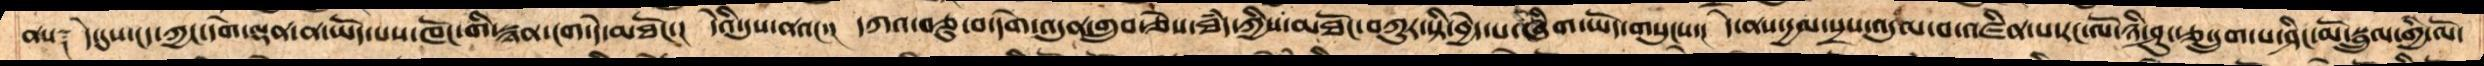ནས༑  དེ་དུས་ངད་ཀྱང་དགེ་ལྡན་ན་ཡོད་པས་ཁོང་གི་སྙན་ངག་དེ་མཐོང་།  དེའི་དུས་ནའང་།  དཀའ་བཅུ་བ་དགེ་འདུན་གྲུབ་ཅེས་ཐཾད་ཀྱིས་མཐོང་བཀུར་སྟི་བྱེད་པ་ཞིག་ཡོད་གསུངས་།  དེ་ནས་དྱལ་སྲས་འདུལ་བ་འཛིན་པ་རང་ལོ་ཉི་ཤུ་རྩ་དྲུག་པ་ཤིང་མོ་སྦྲུལ་གྱི་ལོ་
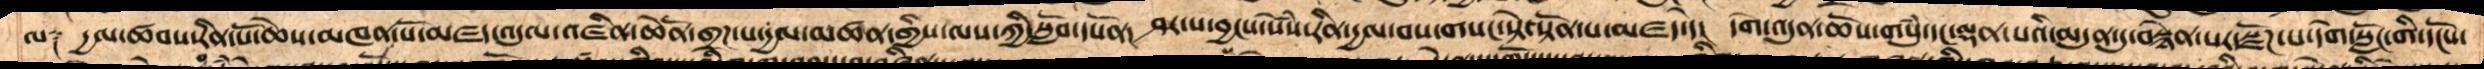ལ༑  དྱལ་ཚབས་རིན་པོ་ཆེས་མཁན་པོ་མཛད་འདུལ་འཛིན་ཆེནོ་གྲཌ་པ་དྱལ་མཚན་གྱིས་ལས་ཀྱི་སློབ་དཔོན།   ཤར་པ་བྱངས་སེཾས་རིན་དྱལ་བས་གསང་སྟེ་སྟོན་པ་མཛད་དེ།   དགེ་འདུན་ཆོས་གསུཾ་དང་ལྡན་པའི་མདུན་དུ་བསྙེན་པར་སྫོཌ་པ་དགེ་སློང་གི་དངོས་
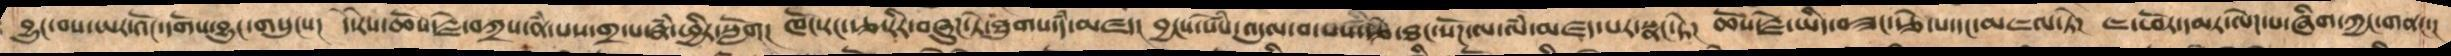བྱུང་བས་ཡར་འོང་དགོས་བྱུང་གསུངས།  དེ་རེས་ཆོས་རྗེ་བཀྲས་ནཾ་པས་གྲ་པ་རྣཾ་ཕྱིར་སློག།  ཁོང་རང་ཙ་རིར་བཞུཌ་ཏེ་ཐུཌ་དཾ་མཛད།  བྱང་སེཾས་འདུལ་བ་པས་རྩེ་ཐང་སོཌ་ལ་ལཾ་མཛད་པར་སྣང་ཏེ།  ཆོས་རྗེ་ཡིད་བཟང་རྩེ་པ་དང་མཇལ་ཏེ།  ཇ་ཕོར་དམར་ལེཌ་པ་ཞིག་ཀྱང་གནང་།
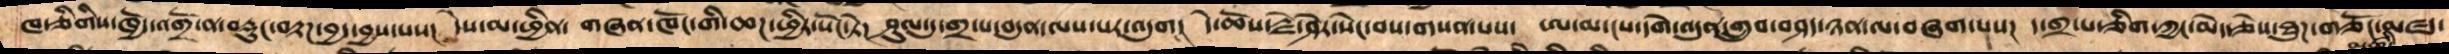ཁ་ཅིགིས་ཁྱོད་འགྲོ་ན་བརྡུང་བརྟཌ་བྱད་བྱས་པས།  དེས་མ་ཕྱིན་  གཞན་ཁོང་གི་ཆཌ་ཕྱིར་སོང་ཏེ།  ཤུལ་དུ་གྲ་པ་བདུན་ལས་པར་འདུག  དེ་ཆོས་རྗེ་ཤེར་་སེང་བས་གསན་པས།  ཨ་མ་ངས་དགེ་འདུན་གྲུབ་འཤད་ཉན་ལ་བཞག་པས།  ད་གྲ་པ་ཅིག་ཀྱང་མེད་ཅེས་ཐུཌ་གཅོང་མཛད་
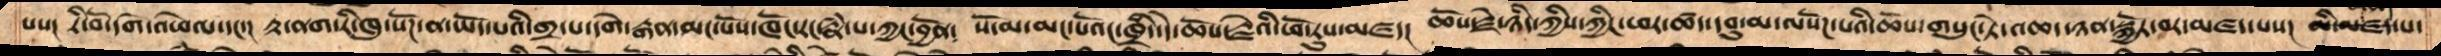པས། རི་བོ་དགེ་འཕེལ་དང་།  རྟ་ནག་རི་ཁུད་སོཌ་ན་ཡོད་པའི་གྲ་པ་དགེ་རྒན་མང་པོས་ཁོང་རང་རྣཾ་པ་ཀྱང་བྱོན།  སོ་མ་མང་པོའང་ཁྲིད་དེ་ཆོས་རྗེའི་ཕོ་རུས་མཛད།  ཆོས་རྗེ་ཉིད་ཀྱིས་ཀྱིང་ཕར་ཚད་དང་དབུ་མ་ལསོཌ་པའི་ཆོས་གསུང་ཏེ་འཆད་ཉན་སྐྱོང་བར་མཛད་པས།  མི་མཛད་པ་
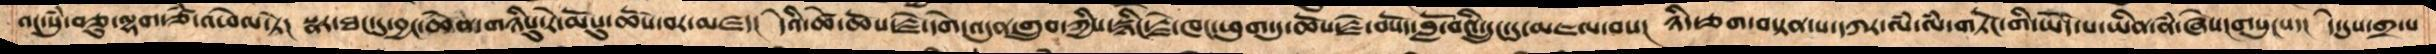འང་སུཾ་བཅུ་ལྷག་ཙཾ་འཕེལ་ཏེ།  སྣར་ཐང་དུ་བྱང་ཆེན་གཉིསུ་རེས་མོསུ་ཆོས་བར་མཛད།  དེའི་ཚེ་ཆོས་རྗེ་དགེ་འདུན་གྲུབ་ཀྱིས་སྙིང་རྗེ་ཁང་ཕུག་དུ་ཆོས་རྗེ་བསོད་བློ་བའི་དྲུང་དུ་མཇལ་བས།   ཉིད་ཅག་བསྟན་པ་དཀར་ལཾ་ལཾ་གཏོང་གི་ཡོད་པ་ཡིན་ནཾ་ཞེས།གསུངས་།  དེ་དུས་གྲ་པ
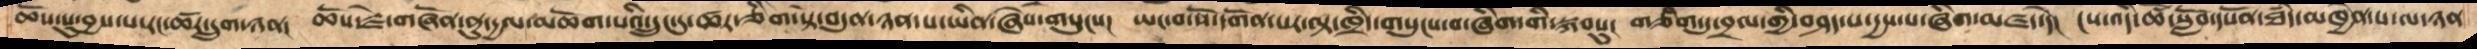ཆོས་སུ་བྱས་པ་རང་ཚོར་དྲུག་ཉན།  ཆོས་རྗེ་གཞོན་ནུ་དྱལ་མཆོག་པའི་དྲུང་དུ་ཚར་ཅིག་སྟེ་བདུན་པ་ཡིན་ཞེས་གསུངས།  ཡང་བ་སོ་དགོན་པར་ལྟ་ཁྲིད་གསུངས་བ་ཞིག་གི་སྐབསུ།  གཅིག་དུ་བྲལ་གྱི་བཤད་པ་དྱས་པ་ཞིག་མཛད་དེ།  ངས་འདི་ཚོ་སློབ་དཔོན་ཐཾད་མཁྱེན་པ་ལ་ཉན
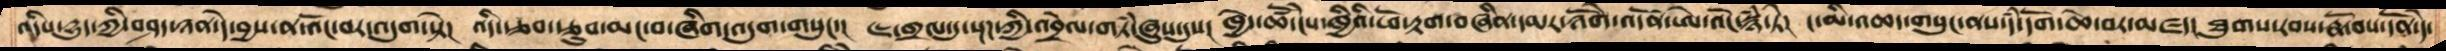འདིས་དྱུད་ཀྱི་བཤད་ཉན་དེ་བྱས་ན་འོང་བར་འདུག་སྟེ།  འདི་རྩབ་རྩུབ་མང་བ་ཞིག་འདུག་གསུང་།  ཇ་གྲལ་དུ་སྔཌ་ཀྱི་འབྲེལ་གཏཾ་ཞུས་དུས།  ཁྱེད་ཚོ་དེས་ཁྱིའི་ཕོ་རྟག་བཞིན་དམར་ཉོགེ་འདོན་ཨེ་འོང་སྙཾ་ཏེ།   ང་མི་འཆད་གསུང་ནས་དཾ་དོག་ཆེ་བར་མཛད།   ཐུགས་རབས་རྣོ་བས་དོན་དེ་
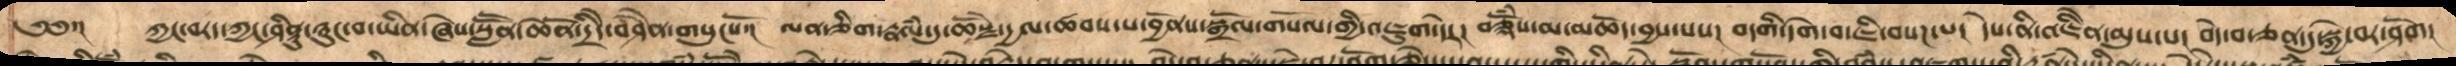༄༅་།    ཀྱང་བརད་ཀྱང་ཤིནྟུ་ཉུང་བ་ཡིན་ཞེས་སླཽན་ཆེནོ་དྲིདེ་བཤཻན་གསུངསོ་།  ལན་ཅིག་རྣལཾ་དུ་ཆོསྗེ་དྱལ་ཚབས་པ་བྱོནས་སྒྲོལ་གསོལ་གྱི་འཇུག་དེར།  བཅྡོཾས་མ་མཆོད་བྱས་པས།  བདགི་དགེ་བ་ཇི་བསཌ་པ། དེས་ནིའཇིནེ་མུས་པ། བདེ་བ་ཅན་དུ་སྐྱེ་བར་ཤོག།
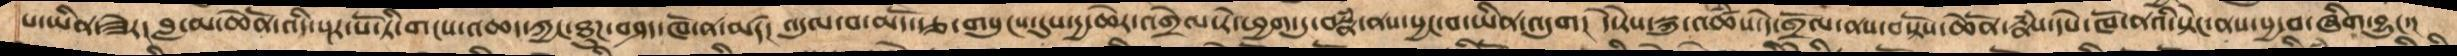པ་ཡིན་ཟེར་།  བླ་མ་ཆེནོ་འདི་སྔར་པོ་ཏི་གངས་འཆད་ཀྱང་ཐུཌ་བཤད་ཁོ་ན་མཛད།  འདུལ་བ་མདོ་རྩ་གསུངས་དུས་དྱ་ཆེར་འགྲེལ་ཏེ་ཕྱག་དུ་བསྣཾ་ནས་སྱང་བ་ཡིན་འདུག།  དེ་རེས་སྐུ་འཚཾས་དེ་གྲོལ་ནས་བསྟོས་ཆེནོ་རྣཾས་དཔེ་ཁོ་ནའི་སྟེང་ནས་སྱ་བ་ཞིག་བྱུང་།
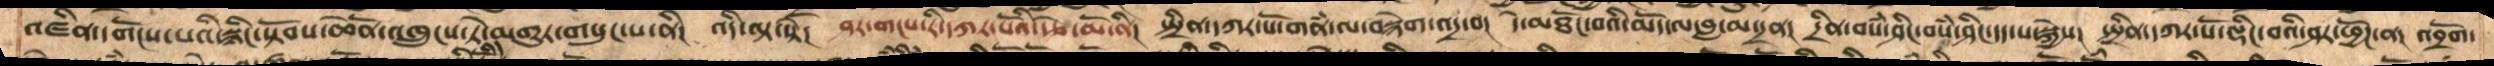འཛིན་དགོངས་པའི་སྙིང་སྟོབས་ཆེནོ་འཁྲུངས་ཏེ་མགུར་གསུང་པ་ནི།   འདི་ལྟ་སྟེ།  ཤར་གངས་རི་དཀར་པོའི་རྩེ་མོ་ནི།  སྤྲིན་དཀར་པོ་གནཾ་ལ་བསྙེག་འདྲ་བ།  དེ་མཐོང་བའི་མོད་ལ་བླ་མ་དྲན།  དྲིན་བསཾ་ཤིང་བསཾ་ཤིང་དད་པ་སྐྱེས།   སྤྲིན་དཀར་པོ་ལྡིང་བའི་ཤར་ཕྱོཌ་ན།  འབྲོག་
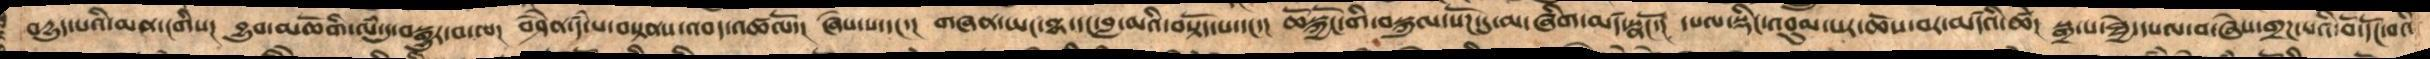བདྱུད་པའི་མན་ངགིས།  བྱུབ་མཆོགི་ལཾ་དུ་བསྒྱུར་བ་ལ།  བཤཻན་དཾ་པ་བསྟནས་འབད་འཚལོ་།  ཞེས་པ་དང་།  གཞན་ཡང་ལྷ་དང་བླ་མའི་བསྟོད་པ་དང་།  ཆོསྐྱོང་གི་བསྐུལ་སོཌ་དུ་མ་ཞིག་མཛད་སྣངོ་།  དཔལ་སྡིང་འབུམ་པར་ཆོས་བར་མདོའི་ཚེ།  སྒྲ་པ་ཐྱེ་དཔལ་བ་ཞེས་གྲཌ་པའི་བོ་དོང་བའི་
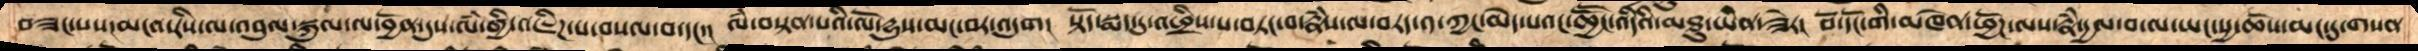བཟང་པས་མངའ་རིས་ལ་འབུལ་སྐུལ་ལ་བྱོན་དུས་ལཾ་གྱི་འཇིཌ་པ་བསལ་བ་དང་།  ལཾ་བསྟན་པའི་ལོ་དྱུས་མང་བར་འདུག། སྟོད་སྨད་དུ་འཕྲིས་པ་བཏང་བ་རྣཾས་ལ་བརད་༡་ཀྱང་མེད་པའང་ཆྱཽང་འདིའི་མཐུ་ཡིན་ཟེར།  བོ་དོང་གི་མཁེན་ཕྱོཌ་ལས་རྣཾ་དྱལ་བ་ལ་ཡང་སྱ་ཆོས་མང་དུ་གསན་
